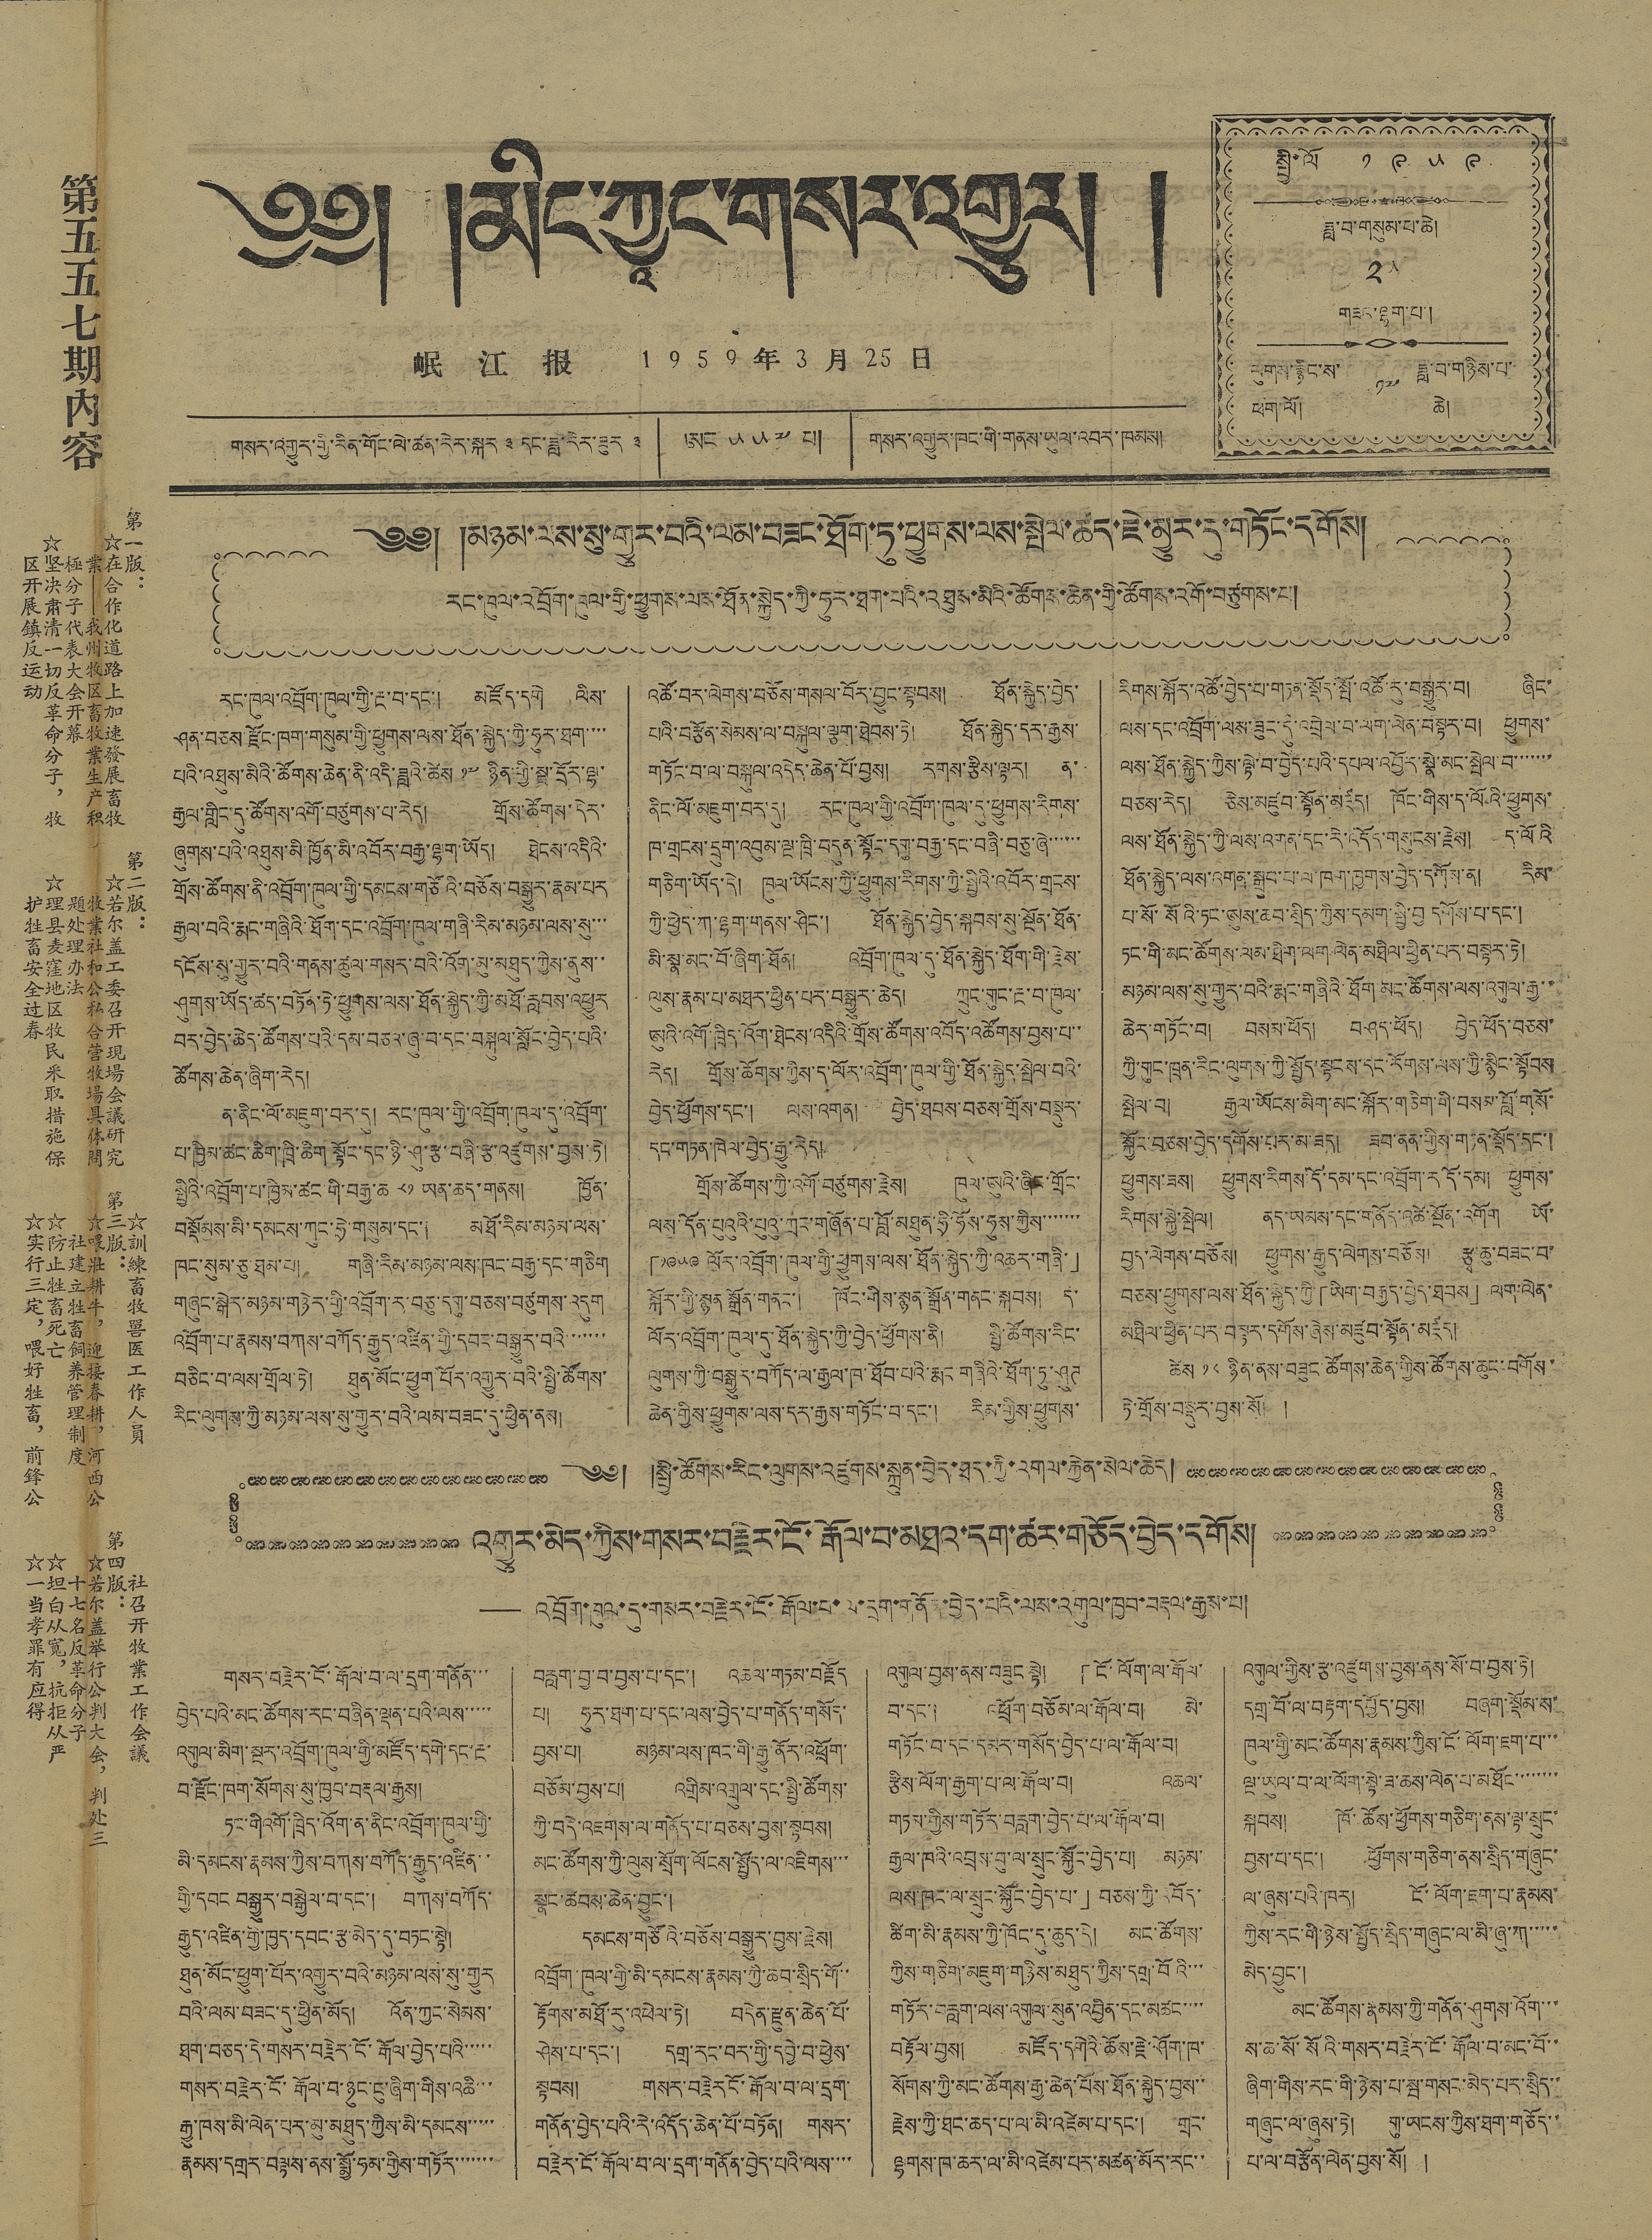༄༅། །མིང་ཀྱཱང་གསར་འགྱུར། །
第五五七期內容
第一版：
☆在合作化道路上加速發展畜牧
業——我州牧区畜牧業生产积
極分子代表大会开幕
☆坚决肃清一切反革命分子，牧
区开展鎮反运动
第二版：
☆若尔盖工委召开現場會議研究
牧業社和公私合营牧場具体問
題处理办法
☆理县麦窪地区牧民采取措施保
护牲畜安全过春
☆訓練畜牧嘼医工作人員
第三版：
☆喂壯耕牛，迎接春耕，河西公
社建立牲畜飼养管理制度
☆防止牲畜死亡
☆实行三定，喂好牲畜，前鋒公
社召开牧業工作会議
第四版：
☆若尔盖举行公判大会，判处三
十七名反革命分子
☆坦白从寬，抗拒从严
☆一当孝罪有应得
岷 江 报 1 9 5 9 年 3 月 25 日
གསར་འགྱུར་གྱི་རིན་གོང་ལེ་ཚན་རེར་སྐར ༣ དང་ཟླ་རེར་ཟུར ༣ ཨང ༥༥༧ པ། གསར་འགྱུར་ཁང་གི་གནས་ཡུལ་འབར་ཁམས།
སྤྱི་ལོ ༡ ༩ ༥ ༩
ཟླ་བ་གསུམ་པ་ཆེ།
༢༥
གཟའ་ལྷག་པ་།
ལུགས་རྙིང་ས་
ཕག་ལོ།
༡༧
ཟླ་བ་གཉིས་པ་
ཆེ།
༄༅། །མཉམ་ལས་སུ་གྱུར་བའི་ལམ་བཟང་ཐོག་ཏུ་ཕྱུགས་ལས་སྤེལ་ཚད་ཇེ་མྱུར་དུ་གཏོང་དགོས།
རང་ཁུལ་འབྲོག་ཁུལ་གྱི་ཕྱུགས་ལས་ཐོན་སྐྱེད་ཀྱི་ཧུར་ཐག་པའི་འཐུས་མིའི་ཚོགས་ཆེན་གྱི་ཚོགས་འགོ་བཙུགས་པ།
རང་ཁུལ་འབྲོག་ཁུལ་གྱི་རྔ་བ་དང་། མཛོད་དགེ ལིས་
ཤན་བཅས་རྫོང་ཁག་གསུམ་གྱི་ཕྱུགས་ལས་ཐོན་སྐྱེད་ཀྱི་ཧུར་ཐག་་་་
པའི་འཐུས་མིའི་ཚོགས་ཆེན་ནི་འདི་ཟླའི་ཚེས ༡༧ ཉིན་གྱི་སྔ་དྲོར་ལྷ་
རྒྱལ་གླིང་དུ་ཚོགས་འགོ་བཙུགས་པ་རེད། གྲོས་ཚོགས་དེར་
ཞུགས་པའི་འཐུས་མི ཁྱོན་མི་འབོར་བརྒྱ་ལྷག་ཡོད། ཐེངས་འདིའི་
གྲོས་ཚོགས་ནི་འབྲོག་ཁུལ་གྱི་དམངས་གཙོའི་བཅོས་བསྒྱུར་རྣམ་པར
རྒྱལ་བའི་རྨང་གཞིའི་ཐོག་དང་འབྲོག་ཁུལ་གཞི་རིམ་མཉམ་ལས་སུ་་་
དངོས་སུ་གྱུར་བའི་གནས་ཚུལ་གསར་བའི་འོག་མུ་མཐུད་ཀྱིས་ནུས་་
ཤུགས་ཡོད་ཚད་བཏོན་ཏེ་ཕྱུགས་ལས་ཐོན་སྐྱེད་གྱི་མཐོ་རླབས་འཕྱུར
བར་བྱེད་ཆེད་ཚོགས་པའི་དམ་བཅའ་ཞུ་བ་དང་བསྐུལ་སློང་བྱེད་པའི་
ཚོགས་ཆེན་ཞིག་རེད།
ན་ནིང་ལོ་མཇུག་བར་དུ། རང་ཁུལ་གྱི་འབྲོག་ཁུལ་དུ་འབྲོག་
པ་ཁྱིམ་ཚང་ཆིག་ཁྲི་ཆིག་སྟོང་དང་ཉི་ཤུ་རྩ་བཞི་རྩ་འཛུགས་བྱས་ཏེ།
སྤྱིའི་འབྲོག་པ་ཁྱིམ་ཚང་གི་བརྒྱ་ཆ ༨༡ ཡན་ཆད་གནས། ཁྱོན་
བསྡོམས་མི་དམངས་ཀུང་ཧྲེ་གསུམ་དང་། མཐོ་རིམ་མཉམ་ལས་
ཁང་སུམ་ཅུ་ཐམ་པ། གཞི་རིམ་མཉམ་ལས་ཁང་བརྒྱ་དང་གཅིག
གཞུང་སྒེར་མཉམ་གཉེར་གྱི་འབྲོག་ར་བཅུ་དགུ་བཅས་བཙུགས་འདུག
འབྲོག་པ་རྣམས་བཀས་བཀོད་རྒྱུད་འཛིན་གྱི་དབང་བསྒྱུར་བའི་་་་་་་
བཅིང་བ་ལས་གྲོལ་ཏེ། ཐུན་མོང་ཕྱུག་པོར་འགྱུར་བའི་སྤྱི་ཚོགས་
རིང་ལུགས་ཀྱི་མཉམ་ལས་སུ་གྱུར་བའི་ལམ་བཟང་དུ་ཕྱིན་ནས།
འཚོ་བར་ལེགས་བཅོས་གསལ་བོར་བྱུང་སྟབས། ཐོན་སྐྱེད་བྱེད་
པའི་བརྩོན་སེམས་ལ་བསྐུལ་ལྕག་ཐེབས་ཏེ། ཐོན་སྐྱེད་དར་རྒྱས་
གཏོང་བ་ལ་བསྐུལ་འདེད་ཆེན་པོ་བྱས། རགས་རྩིས་ལྟར། ན་
ནིང་ལོ་མཇུག་བར་དུ། རང་ཁུལ་གྱི་འབྲོག་ཁུལ་དུ་ཕྱུགས་རིགས་
ཁ་གྲངས་དྲུག་འབུམ་ལྔ་ཁྲི་བདུན་སྟོང་དགུ་བརྒྱ་དང་བཞི་བཅུ་ཞེ་་་་་་
གཅིག་ཡོད་དེ། ཁུལ་ཡོངས་ཀྱི་ཕྱུགས་རིགས་ཀྱི་སྤྱིའི་འབོར་གྲངས་
ཀྱི་ཕྱེད་ཀ་ལྷག་གནས་ཤིང་། ཐོན་སྐྱེད་བྱེད་སྐབས་སུ་སྔོན་ཐོན་
མི་སྣ་མང་བོ་ཞིག་ཐོན། འབྲོག་ཁུལ་དུ་ཐོན་སྐྱེད་ཐོག་གི་རྗེས་
ལུས་རྣམ་པ་མཐར་ཕྱིན་པར་བསྒྱུར་ཆེད། ཀྲུང་གུང་རྔ་བ་ཁུལ་
ཨུའི་འགོ་ཁྲིད་འོག་ཐེངས་འདིའི་གྲོས་ཚོགས་འབོད་འཚོགས་བྱས་པ་་
རེད། གྲོས་ཚོགས་ཀྱིས་ད་ལོར་འབྲོག་ཁུལ་གྱི་ཐོན་སྐྱེད་སྤེལ་བའི་
བྱེད་ཕྱོགས་དང་། ལས་འགན། བྱེད་ཐབས་བཅས་གྲོས་བསྡུར་
དང་གཏན་ཁེལ་བྱེད་རྒྱུ་རེད།
གྲོས་ཚོགས་ཀྱི་འགོ་བཙུགས་རྗེས། ཁུལ་ཨུའི་ཞིང་གྲོང་
ལས་དོན་པུའུའི་པུའུ་ཀྲང་གཞོན་པ་བློ་མཐུན་ཧྲི་ཧོས་ཧུས་ཀྱིས་་་་་་་
「༡༩༥༩ ལོར་འབྲོག་ཁུལ་གྱི་ཕྱུགས་ལས་ཐོན་སྐྱེད་ཀྱི་འཆར་གཞི་」
སྐོར་གྱི་སྙན་སྒྲོན་གནང་། ཁོང་གིས་སྙན་སྒྲོན་གནང་སྐབས། ད་
ལོར་འབྲོག་ཁུལ་དུ་ཐོན་སྐྱེད་ཀྱི་བྱེད་ཕྱོགས་ནི། སྤྱི་ཚོགས་རིང་
ལུགས་ཀྱི་བསྒྱུར་བཀོད་ལ་རྒྱལ་ཁ་ཐོབ་པའི་རྨང གཞིའི་ཐོག་ཏུ་ཤུཊ
ཆེན་གྱིས་ཕྱུགས་ལས་དར་རྒྱས་གཏོང་བ་དང་། རིམ་གྱིས་ཕྱུགས་
རིགས་སྐོར་འཚོ་བྱེད་པ་གཏན་སྡོར་སྤོ་འཚོ་རུ་བསྒྱུར་བ། ཞིང་
ལས་དང་འབྲོག་ལས་ཟུང་དུ་འབྲེལ་བ་ལག་ལེན་བསྟར་བ། ཕྱུགས་
ལས་ཐོན་སྐྱེད་ཀྱིས་ལྟེ་བ་བྱེད་པའི་དཔལ་འབྱོར་སྣེ་མང་སྤེལ་བ་་་་་་་
བཅས་རེད། ཅེས་མཛུབ་སྟོན་མཛད། ཁོང་གིས་ད་ལོའི་ཕྱུགས་
ལས་ཐོན་སྐྱེད་ཀྱི་ལས་འགན་དང་རེ་འདོད་གསུངས་རྗེས། ད་ལོའི
ཐོན་སྐྱེད་ལས་འགན་སྒྲུབ་པ་ལ་ཁག་ཁྱགས་བྱེད་དགོས་ན། རིམ་
པ་སོ་སོའི་ཏང་ཨུས་ཆབ་སྲིད་ཀྱིས་དམག་སྤྱི་བྱ དགོས་པ་དང་།
ཏང་གི་མང་ཚོགས་ལམ་ཐིག་ལག ལེན་མཐིལ་ཕྱིན་པར་བསྟར་ཏེ།
མཉམ་ལས་སུ་གྱུར་བའི་རྨང་གཞིའི་ཐོག་མང་ཚོགས་ལས་འགུལ་རྒྱ་་
ཆེར་གཏོང་བ། བསམ་ཕོད། བཤད་ཕོད། བྱེད་ཕོད་བཅས་
ཀྱི་གུང་ཁྲན་རིང་ལུགས་ཀྱི་སྤྱོད་སྟངས་དང་རོགས་ལས་ཀྱི་སྙིང་སྟོབས
སྤེལ་བ། རྒྱལ་ཡོངས་མིག་མང་སྐོར་གཅིག་གི་བསམ་བློ་གསོ་
སྐྱོང་བཅས་བྱེད་དགོས་པར་མ་ཟད། ཟབ་ནན་གྱིས་གཏན་སྡོད་དང་།
ཕྱུགས་ཟས། ཕྱུགས་རིགས་དོ་དམ་དང་འབྲོག་ར་དོ་དམ། ཕྱུགས་
རིགས་སྐྱེ་སྤེལ། ནད་ཡམས་དང་གནོད་འཚེ་སྔོན་འགོག ཡོ་
བྱད་ལེགས་བཅོས། ཕྱུགས་རྒྱུད་ལེགས་བཅོས། རྩྭ་ཆུ་བཟང་བ་
བཅས་ཕྱུགས་ལས་ཐོན་སྐྱེད་ཀྱི་「ཡིག་བརྒྱད་ཕྱེད་ཐབས」ལག་ལེན་
མཐིལ་ཕྱིན་པར་བསྟར་དགོས་ཞེས་མཛུབ་སྟོན་མཛད།
ཚེས ༡༨ ཉིན་ནས་བཟུང་ཚོགས་ཆེན་གྱིས་ཚོགས་ཆུང་བགོས་
ཏེ་གྲོས་བསྡུར་བྱས་སོ། །
༄༅། །སྤྱི་ཚོགས་རིང་ལུགས་འཛུགས་སྐྲུན་བྱེད་ཐད་ཀྱི་འགལ་རྐྱེན་སེལ་ཆེད།
འགྱུར་མེད་ཀྱིས་གསར་བརྗེར་ངོ་རྒོལ་བ་མཐའ་དག་ཚར་གཅོད་བྱེད་དགོས།
——འབྲོག་ཁུལ་དུ་གསར་བརྗེར་ངོ་རྒོལ་བ་ལ་དྲག་གནོན་བྱེད་པའི་ལས་འགུལ་ཁྱབ་བརྡལ་རྒྱས་པ།
གསར་བརྗེར་ངོ་རྒོལ་བ་ལ་དྲག་གནོན་་་
བྱེད་པའི་མང་ཚོགས་རང་བཞིན་ལྡན་པའི་ལས་་་་་
འགུལ་མིག་སྔར་འབྲོག་ཁུལ་གྱི་མཛོད་དགེ་དང་རྔ་
བ་རྫོང་ཁག་སོགས་སུ་ཁྱབ་བརྡལ་རྒྱས།
ཏང་གི་འགོ་ཁྲིད་འོག་ན་ནིང་འབྲོག་ཁུལ་གྱི་
མི་དམངས་རྣམས་ཀྱིས་བཀས་བཀོད་རྒྱུད་འཛིན་་
གྱི་དབང་བསྒྱུར་བསྒྱེལ་བ་དང་། བཀས་བཀོད་
རྒྱུད་འཛིན་གྱི་ཁྱད་དབང་རྩ་མེད་དུ་བཏང་སྟེ།
ཐུན་མོང་ཕྱུག་པོར་འགྱུར་བའི་མཉམ་ལས་སུ་གྱུར
བའི་ལམ་བཟང་དུ་ཕྱིན་མོད། འོན་ཀྱང་སེམས་
ཐག་བཅད་དེ་གསར་བརྗེར་ངོ་རྒོ་བྱེད་པའི་་་་་
གསར་བརྗེར་ངོ་རྒོལ་བ་ཉུང་ངུ་ཞིག་གིས་འཆི་་་
རྒྱུ་ཁས་མི་ལེན་པར་མུ་མཐུད་ཀྱིས་མི་དམངས་་་་་
རྣམས་དགྲར་བལྟས་ནས་སྨྱོ་ཧམ་གྱིས་གཏོར་་་་་་་
བརླག་བྱ་བ་བྱས་པ་དང་། འཆལ་གཏམ་བརྗོད
པ། ཧུར་ཐག་པ་དང་ལས་བྱེད་པ་གནོད་གསོད་
བྱས་པ། མཉམ་ལས་ཁང་གི་རྒྱུ་ནོར་འཕྲོག་
བཅོམ་བྱས་པ། འགྲིམ་འགྲུལ་དང་སྤྱི་ཚོགས་
ཀྱི་བདེ་འཇགས་ལ་གནོད་པ་བཅས་བྱས་སྟབས།
མང་ཚོགས་ཀྱི་ལུས་སྲོག་ལོངས་སྤྱོད་ལ་འཇིགས་་་
སྣང་ཚབས་ཆེན་བྱུང་།
དམངས་གཙོའི་བཅོས་བསྒྱུར་བྱས་རྗེས།
འབྲོག་ཁུལ་གྱི་མི་དམངས་རྣམས་ཀྱི་ཆབ་སྲིད་གོ་་
རྟོགས་མཐོ་རུ་འཕེལ་ཏེ། བདེན་རྫུན་ཆེན་པོ་
ཤེས་པདང་། དགྲ་རང་བར་གྱི་དབྱེ་བ་ཕྱེས་
སྟབས། གསར་བརྗེར ངོ་རྒོལ་བ་ལ་དྲག་
གནོན་བྱེད་པའི་རེ་འདོད་ཆེན་པོ་བཏོན། གསར་
བརྗེར་ངོ་རྒོལ་བ་ལ་དྲག་གནོན་བྱེད་པའི་ལས་་་་
འགུལ་བྱས་ནས་བཟུང་སྟེ། 「ངོ་ལོག་ལ་རྒོལ་
བ་དང་། འཕྲོག་བཅོམ་ལ་རྒོལ་བ། མེ་
གཏོང་བ་དང་དམར་གསོད་བྱེད་པ་ལ་རྒོལ་བ།
རྩིས་ལོག་རྒྱག་པ་ལ་རྒོལ་བ། འཆལ་
གཏམ་གྱིས་གཏོར་བརླག་བྱེད་པ་ལ་རྒོལ་བ།
རྒྱལ་ཁའི་འབྲས་བུ་ལ་སྲུང་སྐྱོང་བྱེད་པ། མཉམ་
ལས་ཁང་ལ་སྲུང་སྐྱོང་བྱེད་པ་」བཅས་ཀྱི་འབོད་
ཚིག་མི་རྣམས་ཀྱི་ཁོང་དུ་ཆུད་དེ། མང་ཚོགས་
ཀྱིས་གཅིག་མཇུག་གཉིས་མཐུད་ཀྱིས་དགྲ་བོའི་་་
གཏོར་བརླག་ལས་འགུལ་སུན་འབྱིན་དང་མཚང་་་་
བརྟོལ་བྱས། མཛོད་དགེའི་ཆོས་རྗེ་ཤོག་ཁ་
སོགས་ཀྱི་མང་ཚོགས་རྒྱ་ཆེན་པོས་ཐོན་སྐྱེད་བྱས་་
རྗེས་ཀྱི་ཐང་ཆད་པ་ལ་མི་འཛེམ་པ་དང་། གྲང་
ལྷགས་ཁ་ཆར་ལ་མི་འཛེམ་པར་མཚན་མོར་རང་་
འགུལ་གྱིས་རྩ་འཛུགས་བྱས་ནས་སོ་བ་བྱས་ཏེ།
དགྲ་བོ་ལ་བརྟག་དཔྱོད་བྱས། བཞག་སྡོམ་ས་
ཁུལ་གྱི་མང་ཚོགས་རྣམས་ཀྱིས་ངོ་ལོག་ཇག་པ་་་
ལྔ་ཡུལ་བ་ལ་ལོག་སྟེ་ཟ་ཆས་ལེན་པ་མཐོང་་་་་་་་
སྐབས། ཁོ་ཚོས་ཕྱོགས་གཅིག་ནས་ལྟ་སྲུང་
བྱས་པ་དང་། ཕྱོགས་གཅིག་ནས་སྲིད་གཞུང་
ལ་ཞུས་པའི་ཁར། ངོ་ལོག་ཇག་པ་རྣམས་
ཀྱིས་རང་གི་ཉེས་སྤྱོད་སྲིད་གཞུང་ལ་མི་ཞུ་ཀ་་་་་
མེད་བྱུང་།
མང་ཚོགས་རྣམས་ཀྱི་གནོན་ཤུགས་འོག་་་
ས་ཆ་སོ་སོའི་གསར་བརྗེར་ངོ་རྒོལ་བ་མང་བོ་་
ཞིག་གིས་རང་གི་ཉེས་པ་སྤ་གསང་མེད་པར་སྲིད་་
གཞུང་ལ་ཞུས་ཏེ། གུ་ཡངས་ཀྱིས་ཐག་གཅོད་་
པ་ལ་བརྩོན་ལེན་བྱས་སོ་། །
